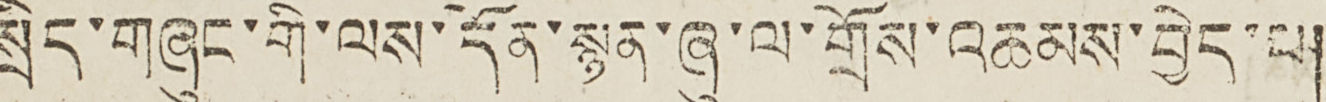སྲིད་གཞུང་གི་ལས་དོན་སྙན་ཞུ་ལ་གྲོས་འཆམས་བྱེད་པ།
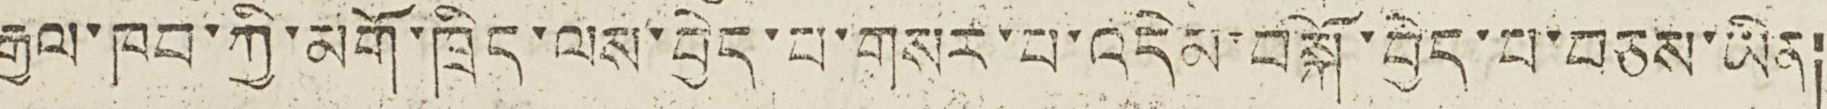རྒྱལ་ཁབ་ཀྱི་མགོ་ཁྲིད་ལས་བྱེད་པ་གསར་པ་འདེམ་བསྐོ་བྱེད་པ་བཅས་ཡིན།
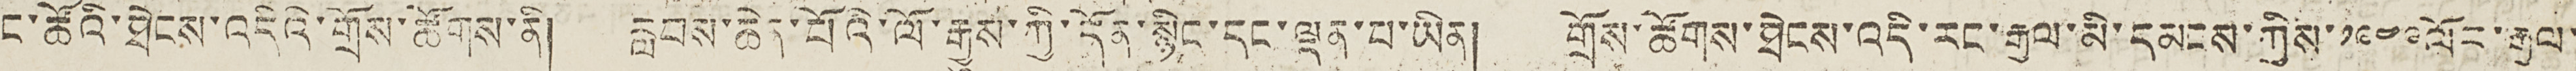ང་ཚོའི་ཐེངས་འདིའི་གྲོས་ཚོགས་ནི། རླབས་ཆེན་པོའི་ལོ་རྒྱུས་ཀྱི་དོན་སྙིང་དང་ལྡན་པ་ཡིན། གྲོས་ཚོགས་ཐེངས་འིད་རང་རྒྱལ་མི་དམངས་ཀྱིས་༡༩༤༩ལོར་རྒྱལ་
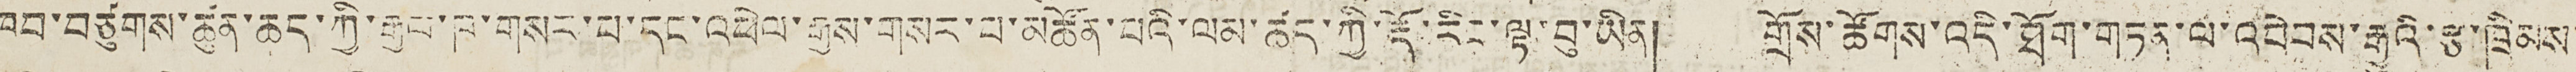ཁབ་བཙུགས་ཚུན་ཆད་ཀྱི་རྒྱལ་ཁ་གསང་པ་དང་འཕེལ་རྒྱས་གསར་པ་མཚོན་པའི་ལམ་ཚད་ཀྱི་རྡོ་རིང་ལྟ་བུ་ཡིན། གྲོས་ཚོགས་འདི་ཐོག་གཏན་ལ་འབེབས་རྒྱུའི་རྩ་ཁྲིམས་
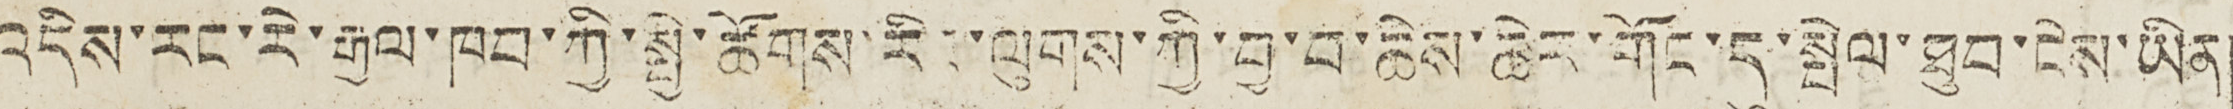འདིས་རང་རེ་རྒྱལ་ཁབ་གྱི་སྤྱི་ཚོགས་རིང་ལུགས་ཀྱི་བྱ་བ་ཆེས་ཆེང་གོང་དུ་སྤེལ་ཐུབ་ངེས་ཡིན།
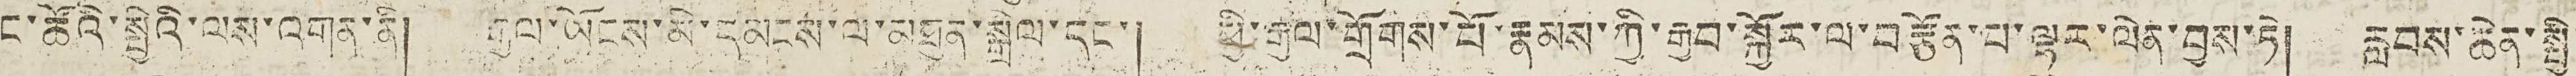ང་ཚོའི་སྤྱིའི་ལས་འགན་ནི། རྒྱལ་ཡོངས་མི་དམངས་ལ་མཐུན་སྒྲིལ་དང་། ཕྱི་རྒྱལ་གྲོགས་པོ་རྣམས་ཀྱི་རྒྱབ་སྐྱོར་ལ་བརྩོན་པ་ལྷར་ལེན་བྱས་ཏེ། རླབས་ཆེན་སྤྱི་
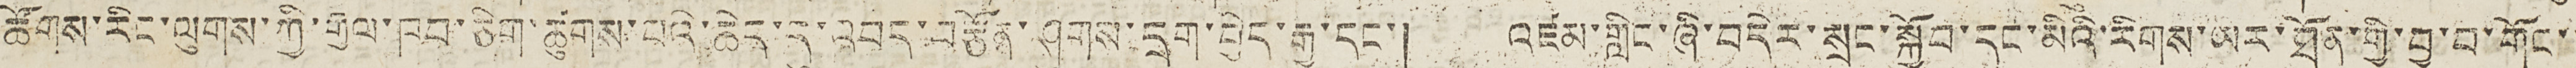ཚོགས་རིང་ལུགས་ཀྱི་རྒྱལ་ཁབ་ཅིག་ཚུགས་པའི་ཆེད་དུ་འབད་བརྩོན་ཤུགས་དྲག་བྱེད་རྒྱུ་དང་། འཛམ་གླིང་ཞི་བདེར་སྲུང་སྐྱོབ་དང་མིའི་རིགས་ཡར་ཐོན་གྱི་བྱ་བ་གོང་་
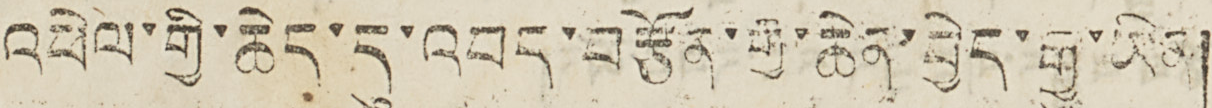འཕེལ་གྱི་ཆེད་དུ་འབད་བརྩོན་རྒྱ་ཆེན་བྱེད་རྒྱུ་ཡིན།
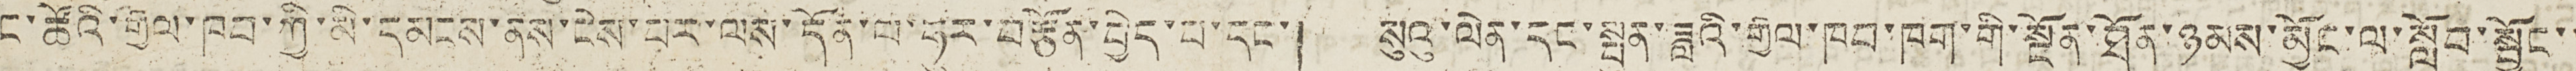ང་ཚོའི་རྒྱལ་ཁབ་ཀྱི་མི་དམངས་ནས་ངེས་པར་ལས་དོན་ལ་ཧུར་བརྩོན་བྱེད་པ་དང་། སུའུ་ལེན་དང་སྤུན་ཟླའི་རྒྱལ་ཁབ་ཁག་གི་སྔོན་ཐོན་ཉམས་མྱོང་ལ་སློབ་སྦྱོང་་
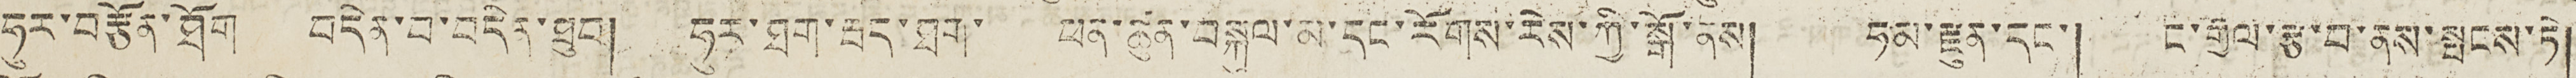ཧུར་བརྩོན་ཐོག བདེན་པ་བདེན་ཐུབ། ཧུར་ཐག་རྦད་ཐག་ ཕན་ཚུན་བསྐུལ་མ་དང་རོགས་རེས་ཀྱི་སྒོ་ནས། ཧམ་རྫུན་དང་། ང་རྒྱལ་རྩ་བ་ནས་སྤངས་ཏེ།
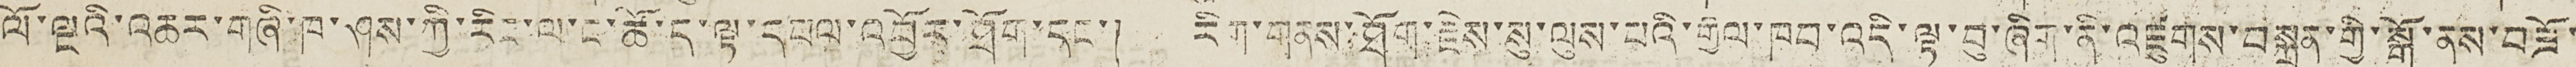ལོ་ལྔའི་འཆར་གཞི་ཁ་ཤས་ཀྱི་རིང་ལ་ང་ཚོ་ད་ལྟ་དཔལ་འབྱོར་ཐོག་དང་། རིག་གནས་ཐོག་རྗེས་སུ་ལུས་པའི་རྒྱལ་ཁབ་འདི་ལྟ་བུ་ཞིག་ནི་འཛུགས་བསྐྲུན་གྱི་སྒོ་ནས་བཟོ་
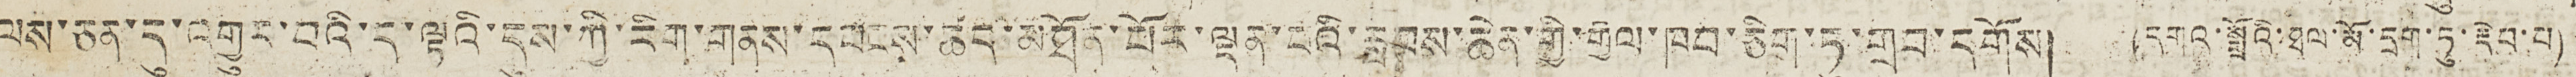ལས་ཅན་དུ་འགྱུར་བའི་ད་ལྟའི་དུས་ཀྱི་རིག་གནས་དབངས་ཚད་མཐོན་པོར་ལྡན་པའི་རླབས་ཆེན་གྱི་རྒྱལ་ཁབ་ཅིག་ཏུ་གྲུབ་དགོས། (དགའ་སྒྲོའི་ཐལ་མོ་དྲག་ཏུ་རྡེབ་པ)
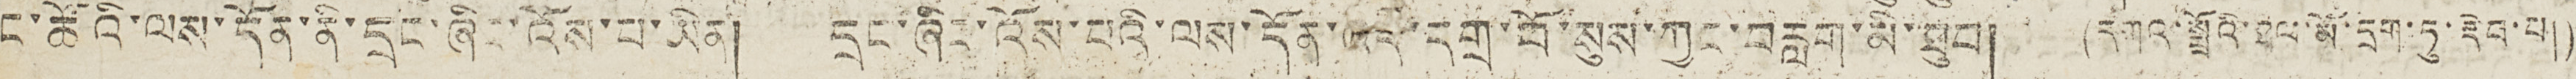ང་ཚོའི་ལས་དོན་ནི་དྲང་ཞིང་འོས་པ་ཡིན། དྲང་ཞིང་འོས་པའི་ལས་དོན་འདི་དགྲ་བོ་སུས་ཀྱང་བརླག་མི་ཐུབ། (དགའ་སྤྲོའི་ཐལ་མོ་དྲག་ཏུ་རྡེབ་པ།)
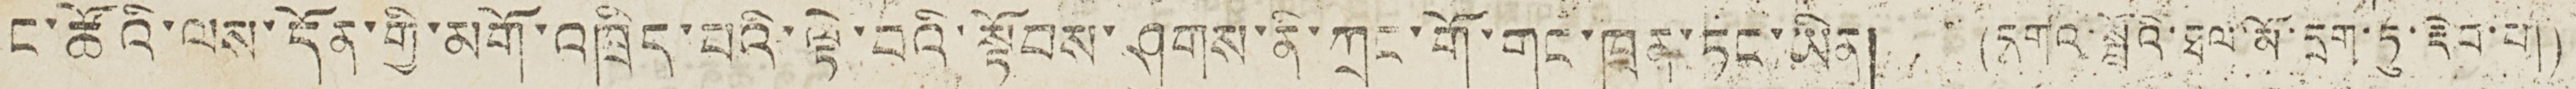ང་ཚོའི་ལས་དོན་གྱི་མགོ་འཁྲིད་པའི་ལྟེ་བའི་སྟོབས་ཤུགས་ནི་ཀྲུང་གོ་གུང་ཁྲན་ཏང་ཡིན། (དགའ་སྤྲོའི་ཐལ་མོ་དྲག་ཏུ་རྡེབ་པ།)
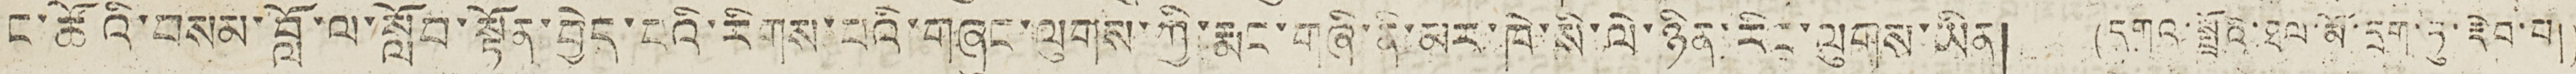ང་ཚོའི་བསམ་བློ་ལ་སློབ་སྟོན་བྱེད་པའི་རིགས་པའི་གཞུང་ལུགས་ཀྱི་རྨང་གཞི་ནི་མར་ཁེ་སི་ལེ་ཉིན་རིང་ལུགས་ཡིན། (དགའ་སྤྲོའི་ཐལ་མོ་དྲག་ཏུ་རྡེབ་པ།)
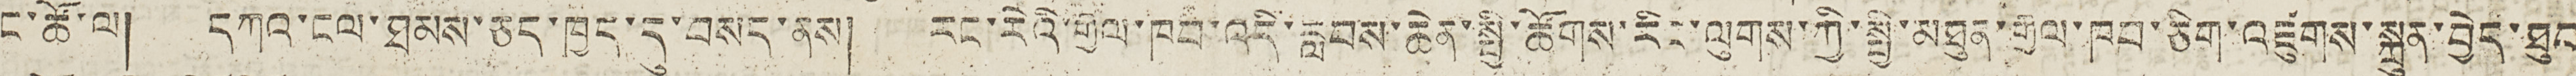ང་ཚོ་ལ། དཀའ་ངལ་ཐམས་ཅད་ཁྱད་དུ་བསད་ནས། རང་རེའི་རྒྱལ་ཁབ་འདི་རླབས་ཆེན་སྤྱི་ཚོགས་རིང་ལུགས་ཀྱི་སྤྱི་མཐུན་རྒྱལ་ཁབ་ཅིག་འཛུགས་སྐྲུན་བྱེད་ཐུབ
